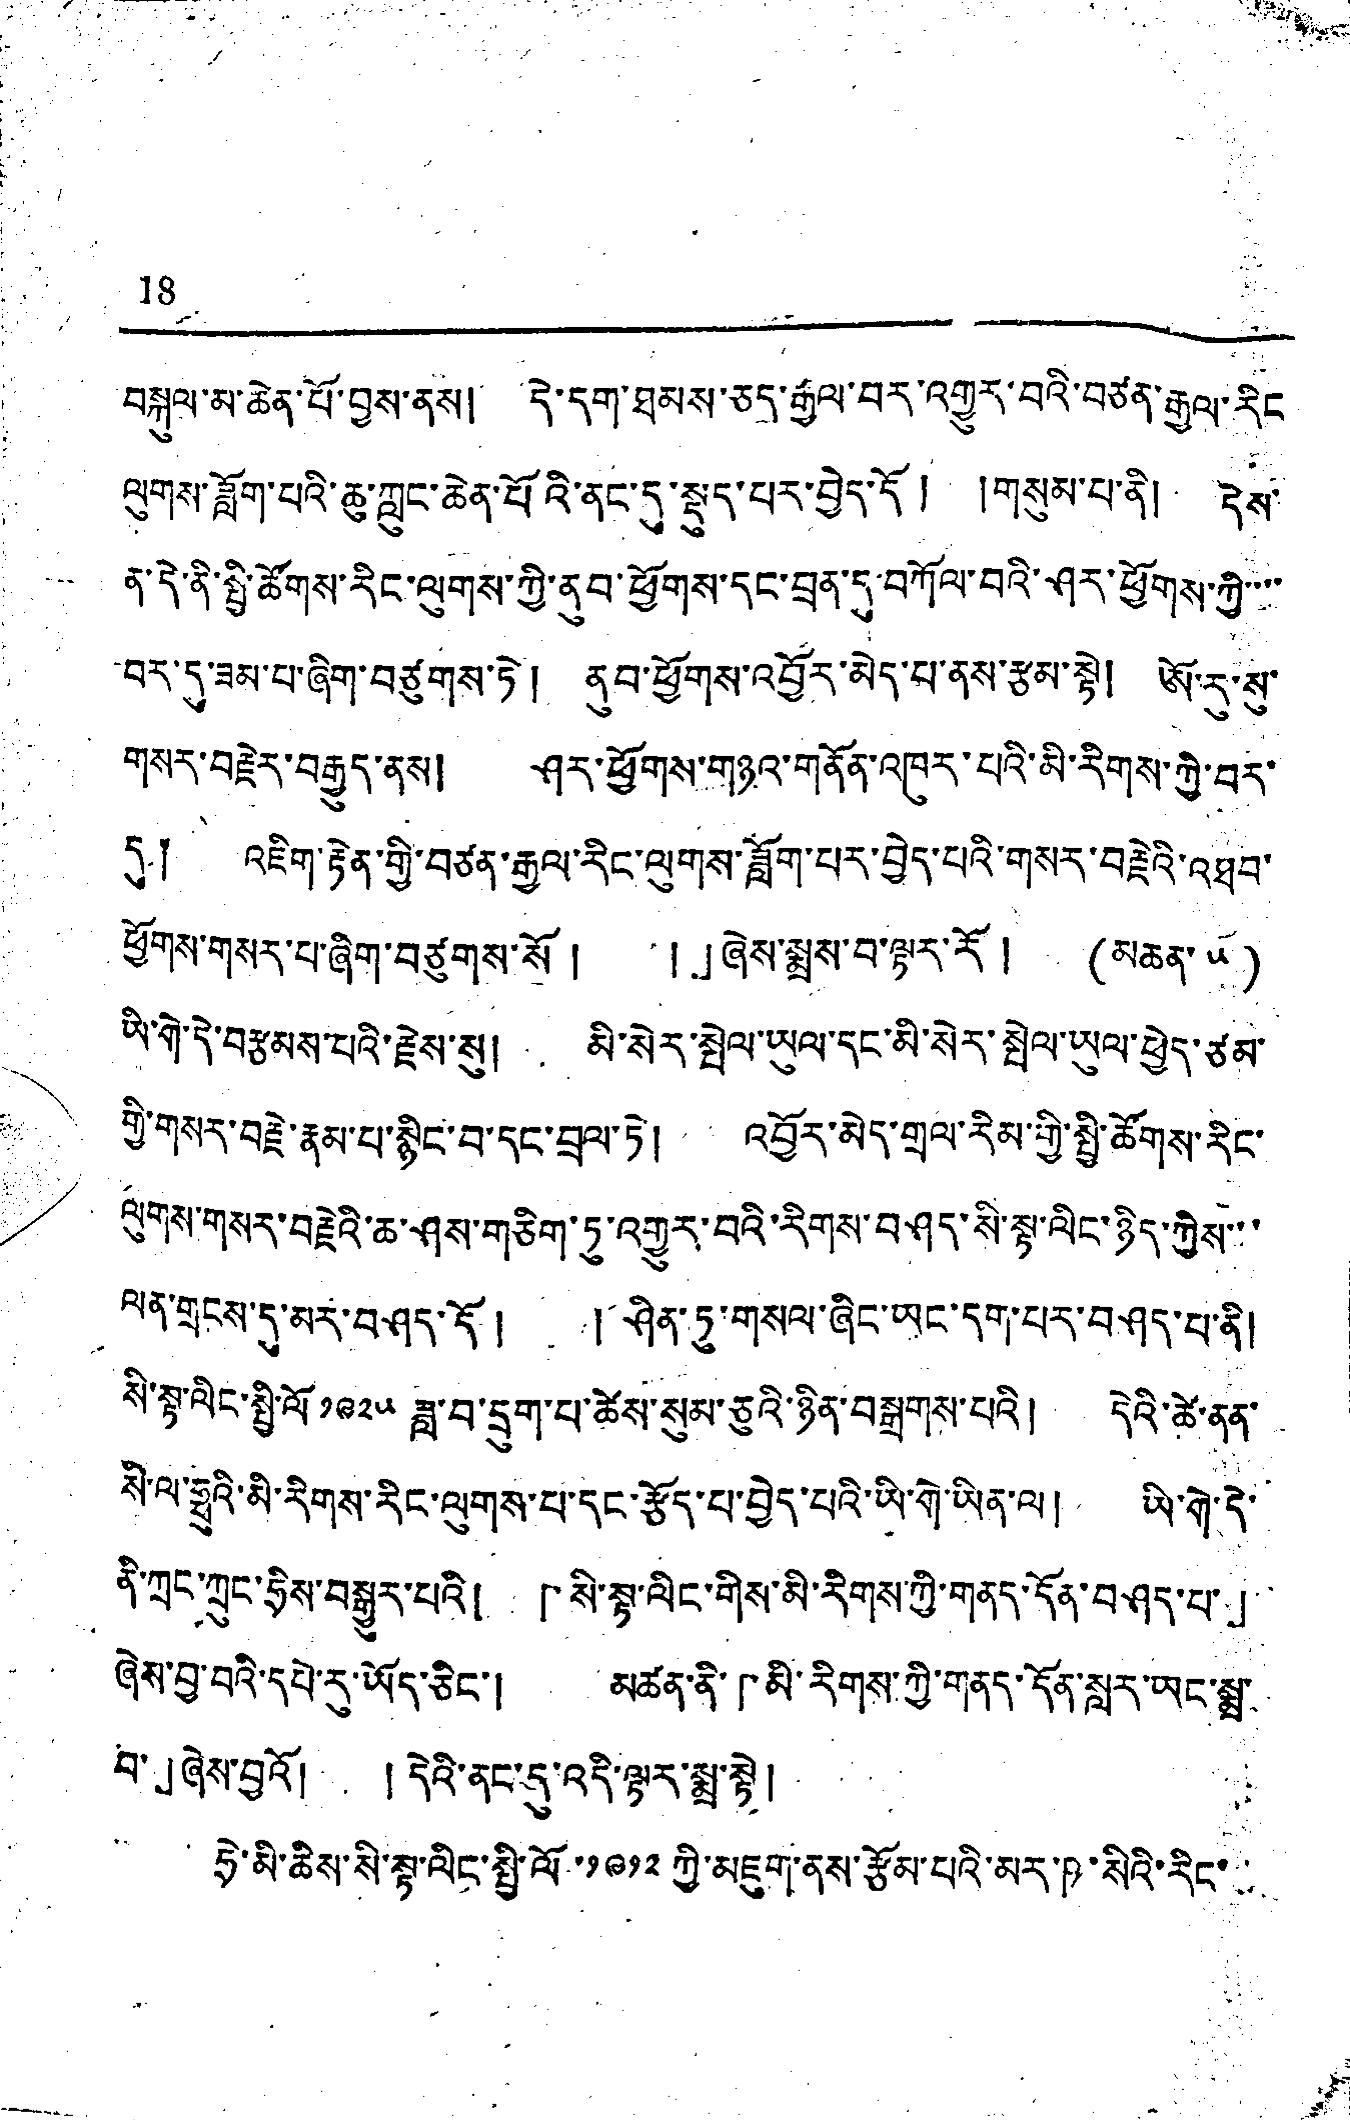18
བསྐུལ་མ་ཆེན་པོ་བྱས་ནས། དེ་དག་ཐམས་ཅད་རྒྱལ་བར་འགྱུར་བའི་བཙན་རྒྱལ་རིང
ལུགས་ཟློག་པའི་ཆུ་ཀླུང་ཆེན་པོའི་ནང་དུ་སྡུད་པར་བྱེད་དོ། །གསུམ་པ་ནི། དེས་
ན་དེ་ནི་སྤྱི་ཚོགས་རིང་ལུས་ཀྱི་ནུབ་ཕྱོགས་དང་བྲན་དུ་བཀོལ་བའི་ཤར་ཕྱོགས་ཀྱི་་་་
བར་དུ་ཟམ་པ་ཞིག་བཙུགས་ཏེ། ནུབ་ཕྱོགས་འབྱོར་མེད་པ་ནས་རྩམ་སྟེ། ཨོ་རུ་སུ་
གསར་བརྗེར་བརྒྱུད་ནས། ཤར་ཕྱོགས་གཉའ་གནོན་འཁུར་པའི་མི་རིགས་ཀྱི་བར་
དུ༐ འཇིག་རྟེན་གྱི་བཙན་རྒྱལ་རིང་ལུགས་ཟློག་པར་བྱེད་པའི་གསར་བརྗེའི་འཐབ་
ཕྱོགས་གསར་པ་ཞིག་བཙུགས་སོ ། །」ཞེས་སྨྲས་བ་ལྟར་རོ ། (མཆན་ ༥)
ཡི་གེ་དེ་བརྩམས་པའི་རྗེས་སུ། མི་སེར་སྤེལ་ཡུལ་དང་མི་སེར་སྤེལ་ཡུལ་ཕྱེད་ཙམ་
གྱི་གསར་བརྗེ་རྣམ་པ་སྙིང་བ་དང་བྲལ་ཏེ། འབྱོར་མེད་གྲལ་རིམ་གྱི་སྤྱི་ཚོགས་རིང་
ལུགས་གསར་བརྗེའི་ཆ་ཤས་གཅིག་ཏུ་འགྱུར་བའི་རིགས་བཤད་སི་སྟ་ལིང་ཉིད་ཀྱིས་་་
ལན་གྲངས་དུ་མར་བཤད་དོ ། ། ཤིན་ཏུ་གསལ་ཞིང་ཡང་དག་པར་བཤད་པ་ནི།
སི་སྟ་ལིང་སྤྱི་ལོ ༡༩༢༥ ཟླ་བ་དྲུག་པ་ཚེས་སུམ་ཅུའི་ཉིན་བསྒྲགས་པའི། དེའི་ཚེ་ནན་
སི་ལ་ཧྥུའི་མི་རིགས་རིང་ལུགས་པ་དང་རྩོད་པ་བྱེད་པའི་ཡི་གེ་ཡིན་ལ། ཡི་གེ་དེ་
ནི་ཀྲང་ཀྲུང་ཧྲིས་བསྒྱུར་པའི། 「སི་སྟ་ལིང་གིས་མི་རིགས་ཀྱི་གནད་དོན་བཤད་པ་」
ཞེས་བྱ་བའི་དཔེ་རུ་ཡོད་ཅིང་། མཚན་ནི་「མི་རིགས་ཀྱི་གནད་དོན་སླར་ཡང་སྨྲ་
བ་」ཞེས་བྱའོ། ། དེའི་ནང་དུ་འདི་ལྟར་སྨྲ་སྟེ།
ཧྲེ་མི་ཆིས་སི་སྟ་ལིང་སྤྱི་ལོ་༡༩༡༢ ཀྱི་མཇུག་ནས་རྩོམ་པའི་མར་ཥ་སིའི་རིང་
